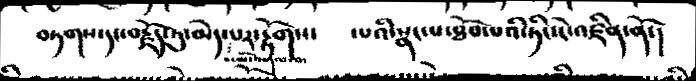བཏགས་དང་བརྗོད་ཏུ་མེད་པར་རྟོགས་     ་པའི་སྣང་པ་ཐོབ་པའི་ཏིང་ངེ་འཛིན་ནོ་།
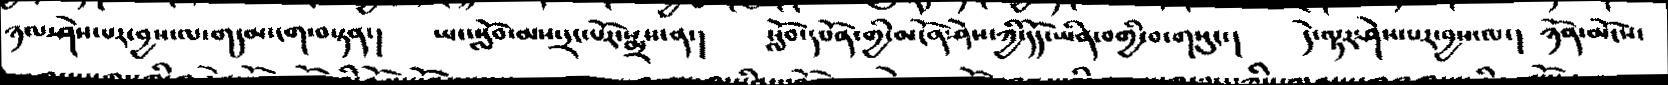ཉལ་ཤེས་པར་བྱས་ལ་གདམ་ངག་བསྟན་།   ཡང་སློབ་མས་དྲང་པོར་སྨྲས་ན་།   སློབ་དཔོན་གྱི་མངོན་ཤེས་ཀྱི་དོད་ཡིན་བགྱི་བ་གསུང་།  དེ་ལྟར་ཤེས་པར་བྱས་ལ་།   ཉོན་མོངས་
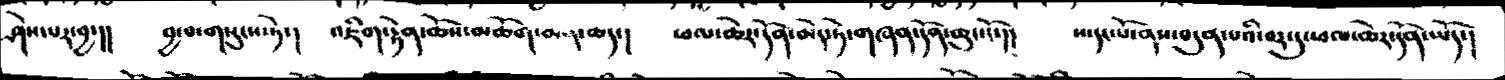ཤེས་པར་བྱ་།།  བྱ་བ་གསུངས་ཏེ་།  འཇིག་རྟེན་ཆོས་མཆོག་མན་ཆད་།    ཕལ་ཆེར་དོན་མེད་ཏེ་གཞན་དོན་ཆུང་ངོ་།།  ས་དང་པོ་ནས་བདུན་པའི་བར་དུ་ཕལ་ཆེར་དོན་ཡོད་།
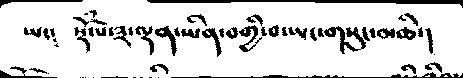ཡང༴  སྡོཾ་པ་༣་ལྡན་ཡིན་བགྱི་བ་སྤང་གསུང་མཆི་།
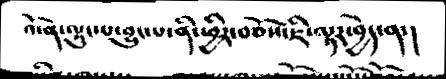འོ་ན་ལྟུང་པ་བྱུང་པ་ན་ཕྱིར་བཅོས་ཇི་ལྟར་བྱེད་ན་།
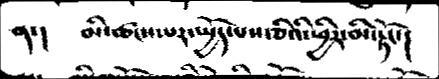ན་།  མི་ཚངས་པར་སྤྱོད་པས་ཅིའི་ཕྱིར་མི་རྟོང་།
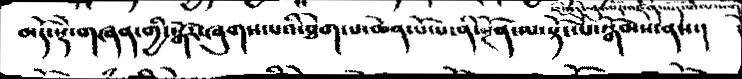མདོ་སྡེ་གཞན་གྱི་སྒོར་ཞུགས་པའི་ཐེག་པ་ཆེན་པོ་པ་ན་ིསྔོན་ལ་སྟོང་པ་སྒོམས་ནས་།  དེ
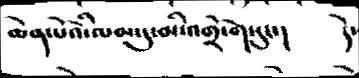ཆེན་པའི་ལམ་དུ་མི་འགྲོ་གསུང་།   དེ་
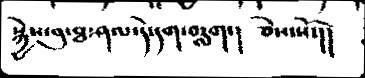སྐྱེས་བུ་ཐ་ཤལ་དེ་དག་བརླག་།   ཅེས་སོ་།།
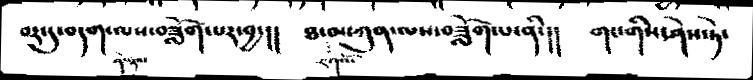བར་དུ་བདག་ལས་བཟློག་པར་བྱ་།།   ཐ་མ་ཀུན་ལས་བཟློག་པ་ནི་།།   གང་གིས་ཤེས་ཏེ་
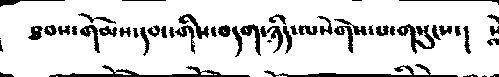ཐབས་གོམས་དབང་གིས་བདག་ཉིད་ལསོགས་པ་གསུངས་།
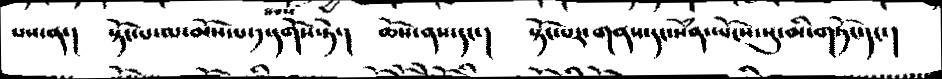པས་ན་།   སྟོང་པ་ལ་མོས་པ་༡་དགོས་ཏེ་།  ཆོས་ནས་དང་།    སྟོང་པར་གནས་དང་སེཾན་ཡོངས་སུ་མི་གཏོང་དང་།
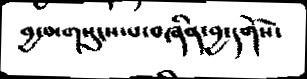བྱ་བ་གསུངས་པ་བཞིན་བྱ་དགོས་
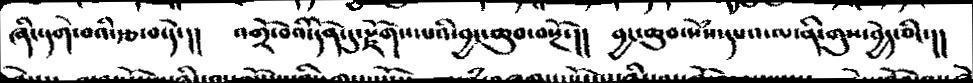ཞིང་དགེ་བའི་རྩ་བ་དེ་།།  འགྲོ་བའི་དོན་དུ་རྫོགས་པའི་བྱང་ཆུབ་བསྔོ་།།   བྱང་ཆུབ་སེཾས་དཔའ་ལ་ནི་གུས་བྱེད་ཅིང་།།
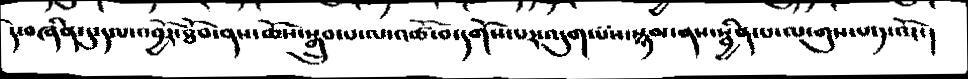དེ་བཞིན་དུ་དའབྱོར་ཐོབ་ནས་ཆོས་སྒྲུབ་པ་ལ་འཚོ་བ་དགོས་པར་འདུག་པས་སྙམ་ནས་སྦྱིན་པ་ལ་གུས་པ་༡་འོང་།
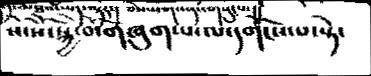སོ་སོ་སྐྱེ་བོ་གཞུགས་པ་ལ་དགོངས་པ་སྟེ་
